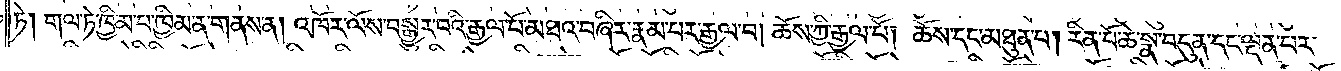ཏེ། གལ་ཏེ་ཁྱིམ་པ་ཁྱིམ་ན་གནས་ན། འཁོར་ལོས་བསྒྱུར་བའི་རྒྱལ་པོ་མཐའ་བཞིར་རྣམ་པར་རྒྱལ་བ། ཆོས་ཀྱི་རྒྱལ་པོ། ཆོས་དང་མཐུན་པ། རིན་པོ་ཆེ་སྣ་བདུན་དང་ལྡན་པར་
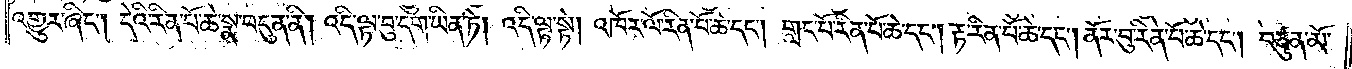འགྱུར་ཞིང༌། དེའི་རིན་པོ་ཆེ་སྣ་བདུན་ནི། འདི་ལྟ་བུ་དག་ཡིན་ཏེ། འདི་ལྟ་སྟེ། འཁོར་ལོ་རིན་པོ་ཆེ་དང༌། གླང་པོ་རིན་པོ་ཆེ་དང༌། རྟ་རིན་པོ་ཆེ་དང༌། ནོར་བུ་རིན་པོ་ཆེ་དང༌། བཙུན་མོ་
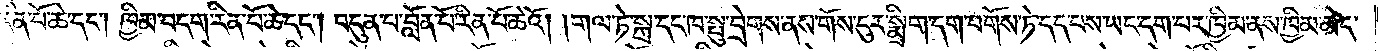རིན་པོ་ཆེ་དང༌། ཁྱིམ་བདག་རིན་པོ་ཆེ་དང༌། བདུན་པ་བློན་པོ་རིན་པོ་ཆེའོ། །གལ་ཏེ་སྐྲ་དང་ཁ་སྤུ་བྲེགས་ནས་གོས་ངུར་སྨྲིག་དག་བགོས་ཏེ་དད་པས་ཡང་དག་པར་ཁྱིམ་ནས་ཁྱིམ་མེད་
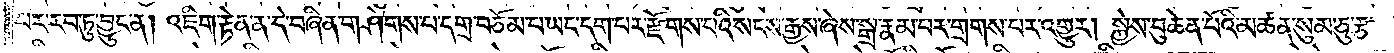པར་རབ་ཏུ་བྱུང་ན། འཇིག་རྟེན་ན་དེ་བཞིན་གཤེགས་པ་དགྲ་བཅོམ་པ་ཡང་དག་པར་རྫོགས་པའི་སངས་རྒྱས་ཞེས་སྒྲ་རྣམ་པར་གྲགས་པར་འགྱུར། སྐྱེས་བུ་ཆེན་པོའི་མཚན་སུམ་ཅུ་རྩ་
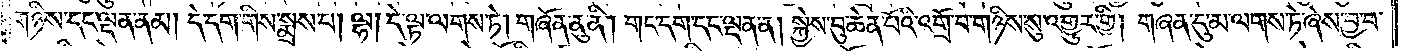གཉིས་དང་ལྡན་ནམ། དེ་དག་གིས་སྨྲས་པ། ལྷ། དེ་ལྟ་ལགས་ཏེ། གཞོན་ནུ་ནི། གང་དག་དང་ལྡན་ན། སྐྱེས་བུ་ཆེན་པོའི་འགྲོ་བ་གཉིས་སུ་འགྱུར་གྱི། གཞན་དུ་མ་ལགས་ཏེ་ཞེས་བྱ་བ་
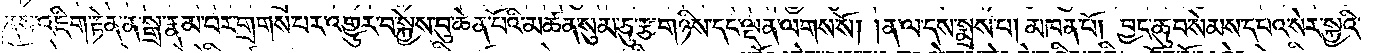ནས་འཇིག་རྟེན་ན་སྒྲ་རྣམ་པར་གྲགས་པར་འགྱུར་བ་སྐྱེས་བུ་ཆེན་པོའི་མཚན་སུམ་ཅུ་རྩ་གཉིས་དང་ལྡན་ལགས་སོ། །ན་ལ་དས་སྨྲས་པ། མཁན་པོ། བྱང་ཆུབ་སེམས་དཔའ་སེར་སྐྱའི་
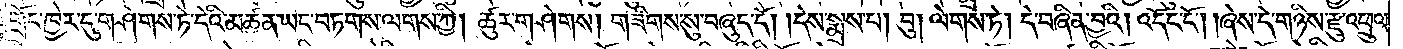གྲོང་ཁྱེར་དུ་གཤེགས་ཏེ་དེའི་མཚན་ཡང་བཏགས་ལགས་ཀྱི། ཚུར་གཤེགས། གཟིགས་སུ་བཞུད་དོ། །དེས་སྨྲས་པ། བུ། ལེགས་ཏེ། དེ་བཞིན་བྱའི། འདོང་ངོ༌། །ཞེས་དེ་གཉིས་རྫུ་འཕྲུལ་
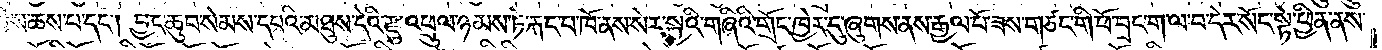གྱིས་ཆས་པ་དང༌། བྱང་ཆུབ་སེམས་དཔའི་མཐུས་དེའི་རྫུ་འཕྲུལ་ཉམས་ཏེ་རྐང་པ་ཁོ་ནས་སེར་སྐྱའི་གཞིའི་གྲོང་ཁྱེར་དུ་ཞུགས་ནས་རྒྱལ་པོ་ཟས་གཙང་གི་ཕོ་བྲང་ག་ལ་བ་དེར་སོང་སྟེ་ཕྱིན་ནས་
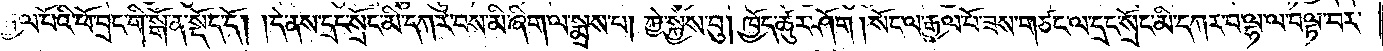རྒྱལ་པོའི་ཕོ་བྲང་གི་སྒོ་ན་སྡོད་དོ། །དེ་ནས་དྲང་སྲོང་མི་དཀར་བས་མི་ཞིག་ལ་སྨྲས་པ། ཀྱེ་སྐྱེས་བུ། ཁྱོད་ཚུར་ཤོག །སོང་ལ་རྒྱལ་པོ་ཟས་གཙང་ལ་དྲང་སྲོང་མི་དཀར་བ་ལྷ་ལ་བལྟ་བར་
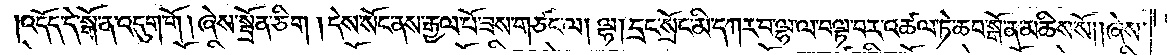འདོད་དེ་སྒོ་ན་འདུག་གོ། ཞེས་སྦྲོན་ཅིག །དེས་སོང་ནས་རྒྱལ་པོ་ཟས་གཙང་ལ། ལྷ། དྲང་སྲོང་མི་དཀར་བ་ལྷ་ལ་བལྟ་བར་འཚལ་ཏེ་ཆབ་སྒོ་ན་མཆིས་སོ། །ཞེས་
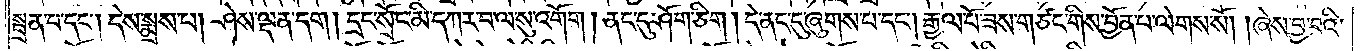སྦྲན་པ་དང༌། དེས་སྨྲས་པ། ཤེས་ལྡན་དག། དྲང་སྲོང་མི་དཀར་བ་ལ་སུ་འགོག །ནང་དུ་ཤོག་ཅིག །དེ་ནང་དུ་ཞུགས་པ་དང༌། རྒྱལ་པོ་ཟས་གཙང་གིས་བྱོན་པ་ལེགས་སོ། །ཞེས་བྱ་བའི་
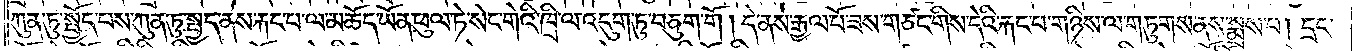ཀུན་ཏུ་སྤྱོད་པས་ཀུན་ཏུ་སྤྱད་ནས་རྐང་པ་ལ་མཆོད་ཡོན་ཕུལ་ཏེ་སེང་གེའི་ཁྲི་ལ་འདུག་ཏུ་བཅུག་གོ། དེ་ནས་རྒྱལ་པོ་ཟས་གཙང་གིས་དེའི་རྐང་པ་གཉིས་ལ་གཏུགས་ནས་སྨྲས་པ། དྲང་
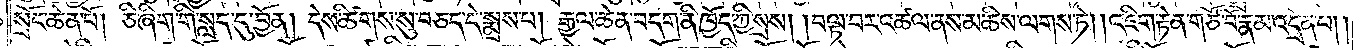སྲོང་ཆེན་པོ། ཅི་ཞིག་གི་སླད་དུ་བྱོན། དེས་ཚིགས་སུ་བཅད་དེ་སྨྲས་པ། རྒྱལ་ཆེན་བདག་ནི་ཁྱོད་ཀྱི་སྲས། །བལྟ་བར་འཚལ་ནས་མཆིས་ལགས་ཏེ། །འཇིག་རྟེན་གཙོ་བོ་རྣམ་འདྲེན་པ། །
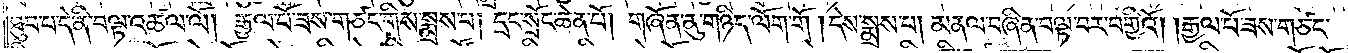ཐུབ་པ་དེ་ནི་བལྟ་འཚལ་ལོ། རྒྱལ་པོ་ཟས་གཙང་གིས་སྨྲས་པ། དྲང་སྲོང་ཆེན་པོ། གཞོན་ནུ་གཉིད་ལོག་གོ །དེས་སྨྲས་པ། མནལ་བཞིན་བལྟ་བར་བགྱིའོ། །རྒྱལ་པོ་ཟས་གཙང་
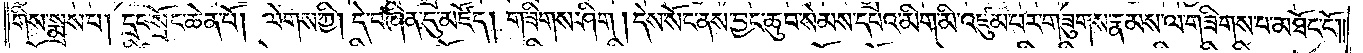གིས་སྨྲས་པ། དྲང་སྲོང་ཆེན་པོ། ལེགས་ཀྱི། དེ་བཞིན་དུ་མཛོད། གཟིགས་ཤིག །དེས་སོང་ནས་བྱང་ཆུབ་སེམས་དཔའ་མིག་མི་འཛུམ་པར་གཟུགས་རྣམས་ལ་གཟིགས་པ་མཐོང་ངོ༌༎
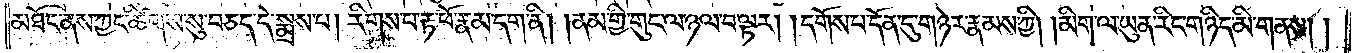མཐོང་ནས་ཀྱང་ཚིགས་སུ་བཅད་དེ་སྨྲས་པ། རིགས་པ་རྟ་ཕོ་རྣམ་དག་ནི། །ནམ་གྱི་གུང་ལ་ཉལ་བ་ལྟར། །དགོས་པ་དོན་དུ་གཉེར་རྣམས་ཀྱི། །མིག་ལ་ཡུན་རིང་གཉིད་མི་གནས། །
